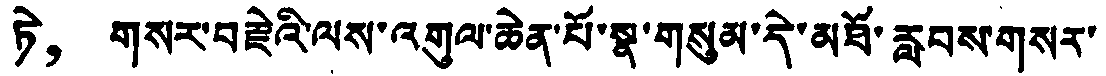ཏེ， གསར་བརྗེའི་ལས་འགུལ་ཆེན་པོ་སྣ་གསུམ་དེ་མཐོ་རླབས་གསར་
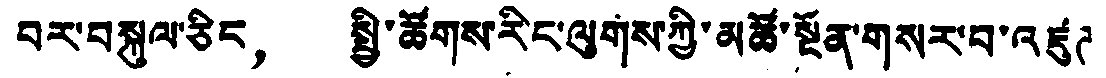བར་བསྐུལ་ཅིང， སྤྱི་ཚོགས་རིང་ལུགས་ཀྱི་མཚོ་སྔོན་གསར་བ་འཛུཊ
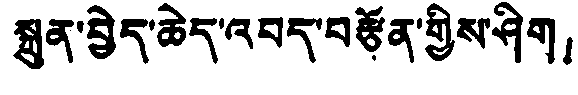སྐྲུན་བྱེད་ཆེད་འབད་བརྩོན་གྱིས་ཤིག！
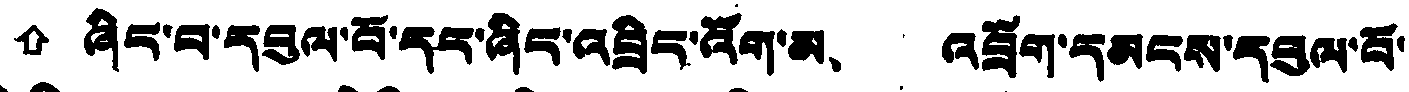🠹 ཞིང་བ་དབུལ་བོ་དང་ཞིང་འབྲིད་འོག་མ、 འབྲོག་དམངས་དབུལ་བོ་
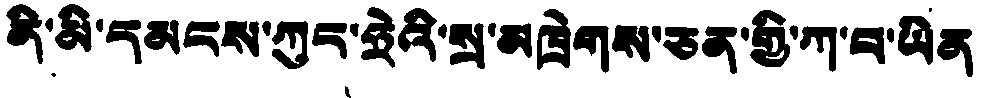ནི་མི་དམངས་ཀུང་ཧྲེའི་སྲ་མཁྲེགས་ཅན་གྱི་ཀ་བ་ཡིན
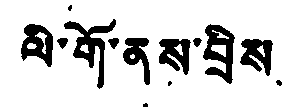ལི་གོ་ནས་བྲིས
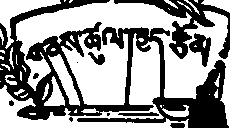གནས་ཚུལ་ཁྱད་རྩོམ
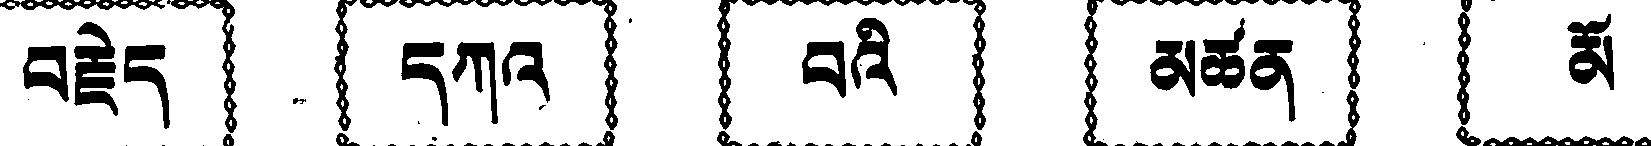བརྗེད དཀའ བའི མཚན མོ
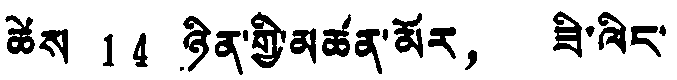ཚེས 14 ཉིན་གྱི་མཚན་མོར， ཟི་ལིང་
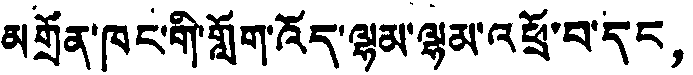མགྲོན་ཁང་གི་གློག་འོད་ལྷམ་ལྷམ་འཕྲོ་བ་དང，
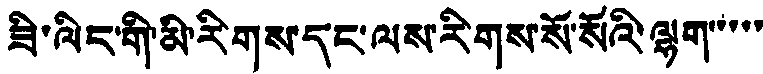ཟི་ལིང་གི་མི་རིགས་དང་ལས་རིགས་སོ་སོའི་ལྷག་་་་་
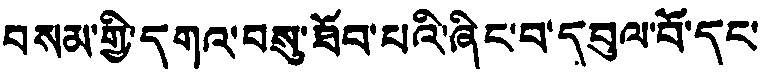བསམ་གྱི་དགའ་བསུ་ཐོབ་པའི་ཞིང་བ་དབུལ་བོ་དང་
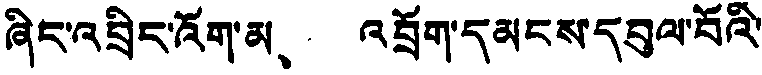ཞིང་འབྲིང་འོག་མ、 འབྲོག་དམངས་དབུལ་བོའི་
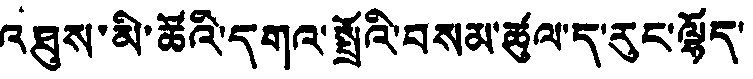འཐུས་མི་ཚོའི་དགའ་སྤྲོའི་བསམ་ཚུལ་ད་རུང་ལྷོད་
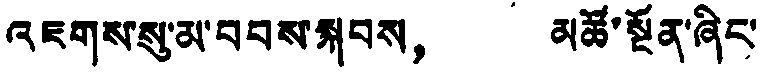འཇགས་སུ་མ་བབས་སྐབས， མཚོ་སྔོན་ཞིང་
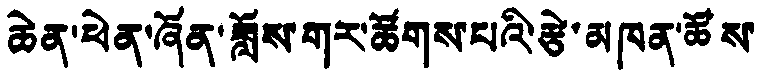ཆེན་ཕེན་ཞོན་ཟློས་གར་ཚོགས་པའི་རྩེ་མཁན་ཚོས་
